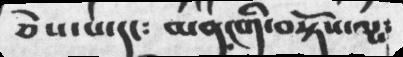ཅེས་པ་དང༴    མན་ངགི་བསྟོས་ལས༴
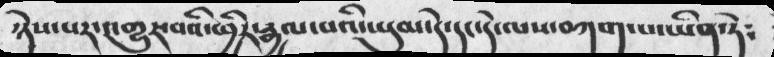ཉེས་པར་འགྱུར་བའི་ཕྱིར་རྒྱལ་བའི་ཡུམ་དེ་དང་དེ་ལས་བཀག་པ་ཡིན་ཏེ༴
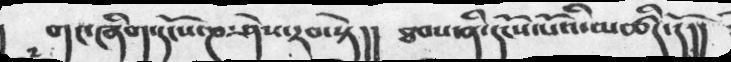གང་ཞིག་དངོས་ཎ་ཤེས་རབ་སྟེ།།  ཐབས་ནི་དངོས་པོའི་མཚིད་དོ།།
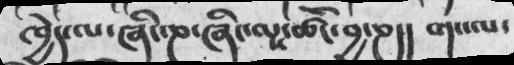ཁྱེད་ལ་ཞིང་ཎ་ཞིང་ལས་ཚོང་བྱ་ཎ།།  གང་ལ་
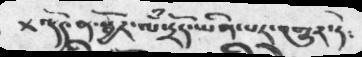འདོད་ན་སྦྱོར་ལཾ་དྲོད་ཡིན་པར་འགྱུར་ཏེ༴
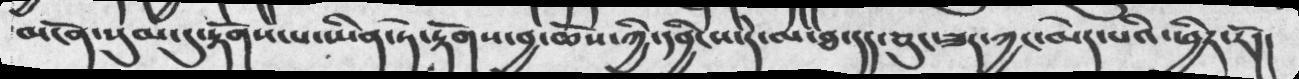མངོན་སུམ་དུ་རྟོགས་པ་ཡིན་ཏེ་རྟོགས་བྱ་ཆོས་ཀྱི་དབྱིངས་དེ་ལ་ཐ་དད་ཅུང་ཟད་ཀྱང་མེད་པའི་ཕྱིར་རོ།།
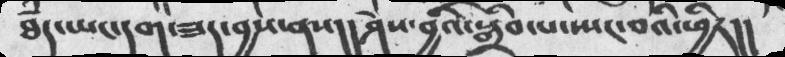ཐཾད་ཡང་དག་ཟད་བྱས་ནས།།ཤེས་བྱའི་སྒྲིབ་པ་སྤང་བའི་ཕྱིར།།
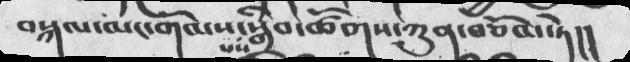བསྐལ་མང་གོམས་པས་སྒྲིབ་ཚོགས་ཀུན་བཅོམ་ཏེ།།
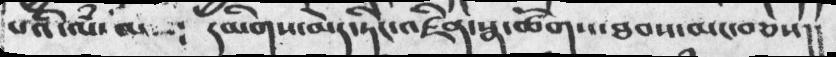པའི་ལཾ་ལས༴   དམིགས་མེད་ཏིང་འཛིན་སྣ་ཚོགས་ཐབས་མང་བཅས།།
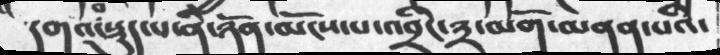དགའ་བ་སྡུད་པ་ནི་ཉོན་མོངས་པ་འབྲིང་༣་མགོ་མནན་པའི་
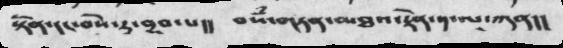སྟོན་དང་བསེ་རུ་བྱུབ་པ།།  བསཾ་གཏན་མཐའ་རྟེན་༡་ལ་ཀུན།།
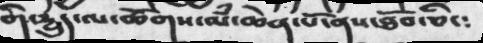གི་དྱུད་ལ་ཚོགས་ལཾ་ཆེན་པོ་ནས་ཐོབ་ཅིང་༴
